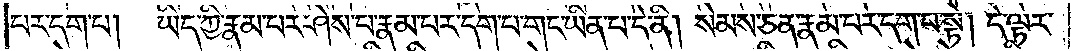པར་དག་པ། ཡིད་ཀྱི་རྣམ་པར་ཤེས་པ་རྣམ་པར་དག་པ་གང་ཡིན་པ་དེ་ནི། སེམས་ཅན་རྣམ་པར་དག་པ་སྟེ། དེ་ལྟར་
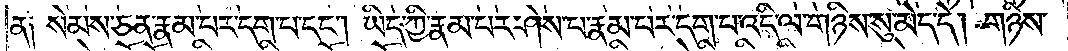ན༑ སེམས་ཅན་རྣམ་པར་དག་པ་དང༌། ཡིད་ཀྱི་རྣམ་པར་ཤེས་པ་རྣམ་པར་དག་པ་འདི་ལ་གཉིས་སུ་མེད་དེ། གཉིས་
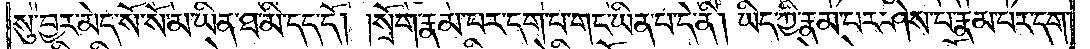སུ་བྱར་མེད་སོ་སོ་མ་ཡིན་ཐ་མི་དད་དོ། །སྲོག་རྣམ་པར་དག་པ་གང་ཡིན་པ་དེ་ནི། ཡིད་ཀྱི་རྣམ་པར་ཤེས་པ་རྣམ་པར་དག་
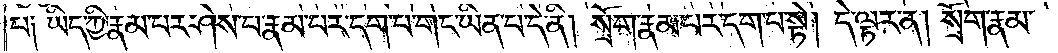པ༑ ཡིད་ཀྱི་རྣམ་པར་ཤེས་པ་རྣམ་པར་དག་པ་གང་ཡིན་པ་དེ་ནི། སྲོག་རྣམ་པར་དག་པ་སྟེ། དེ་ལྟར་ན། སྲོག་རྣམ་
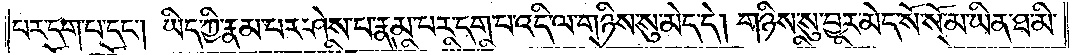པར་དག་པ་དང༌། ཡིད་ཀྱི་རྣམ་པར་ཤེས་པ་རྣམ་པར་དག་པ་འདི་ལ་གཉིས་སུ་མེད་དེ། གཉིས་སུ་བྱར་མེད་སོ་སོ་མ་ཡིན་ཐ་མི་
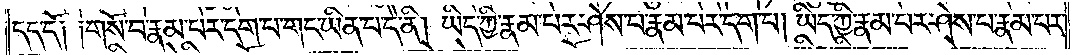དད་དོ། །གསོ་བ་རྣམ་པར་དག་པ་གང་ཡིན་པ་དེ་ནི། ཡིད་ཀྱི་རྣམ་པར་ཤེས་པ་རྣམ་པར་དག་པ། ཡིད་ཀྱི་རྣམ་པར་ཤེས་པ་རྣམ་པར་
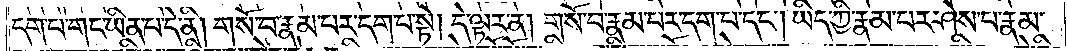དག་པ་གང་ཡིན་པ་དེ་ནི། གསོ་བ་རྣམ་པར་དག་པ་སྟེ། དེ་ལྟར་ན། གསོ་བ་རྣམ་པར་དག་པ་དང༌། ཡིད་ཀྱི་རྣམ་པར་ཤེས་པ་རྣམ་
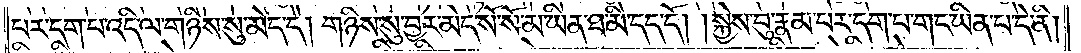པར་དག་པ་འདི་ལ་གཉིས་སུ་མེད་དེ། གཉིས་སུ་བྱར་མེད་སོ་སོ་མ་ཡིན་ཐ་མི་དད་དོ། །སྐྱེས་བུ་རྣམ་པར་དག་པ་གང་ཡིན་པ་དེ་ནི།
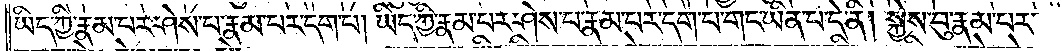ཡིད་ཀྱི་རྣམ་པར་ཤེས་པ་རྣམ་པར་དག་པ། ཡིད་ཀྱི་རྣམ་པར་ཤེས་པ་རྣམ་པར་དག་པ་གང་ཡིན་པ་དེ་ནི། སྐྱེས་བུ་རྣམ་པར་
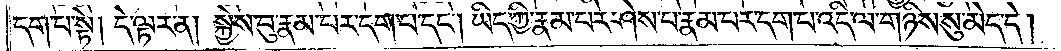དག་པ་སྟེ། དེ་ལྟར་ན། སྐྱེས་བུ་རྣམ་པར་དག་པ་དང༌། ཡིད་ཀྱི་རྣམ་པར་ཤེས་པ་རྣམ་པར་དག་པ་འདི་ལ་གཉིས་སུ་མེད་དེ།
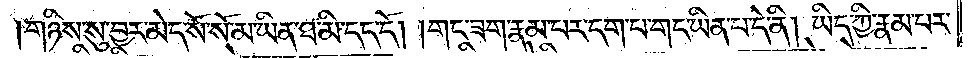གཉིས་སུ་བྱར་མེད་སོ་སོ་མ་ཡིན་ཐ་མི་དད་དོ། །གང་ཟག་རྣམ་པར་དག་པ་གང་ཡིན་པ་དེ་ནི། ཡིད་ཀྱི་རྣམ་པར་
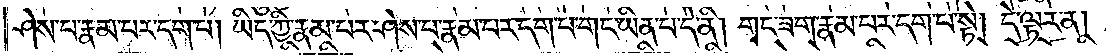ཤེས་པ་རྣམ་པར་དག་པ། ཡིད་ཀྱི་རྣམ་པར་ཤེས་པ་རྣམ་པར་དག་པ་གང་ཡིན་པ་དེ་ནི། གང་ཟག་རྣམ་པར་དག་པ་སྟེ། དེ་ལྟར་ན་
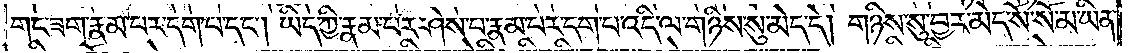གང་ཟག་རྣམ་པར་དག་པ་དང༌། ཡིད་ཀྱི་རྣམ་པར་ཤེས་པ་རྣམ་པར་དག་པ་འདི་ལ་གཉིས་སུ་མེད་དེ། གཉིས་སུ་བྱར་མེད་སོ་སོ་མ་ཡིན་
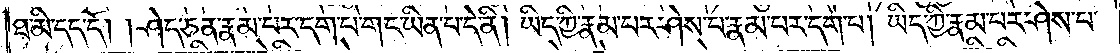ཐ་མི་དད་དོ། །ཤེད་ཅན་རྣམ་པར་དག་པ་གང་ཡིན་པ་དེ་ནི། ཡིད་ཀྱི་རྣམ་པར་ཤེས་པ་རྣམ་པར་དག་པ། ཡིད་ཀྱི་རྣམ་པར་ཤེས་པ་
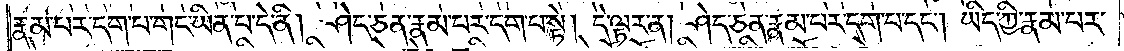རྣམ་པར་དག་པ་གང་ཡིན་པ་དེ་ནི། ཤེད་ཅན་རྣམ་པར་དག་པ་སྟེ། དེ་ལྟར་ན། ཤེད་ཅན་རྣམ་པར་དག་པ་དང༌། ཡིད་ཀྱི་རྣམ་པར་
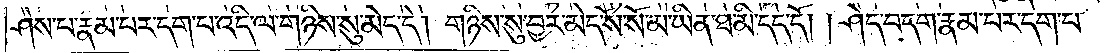ཤེས་པ་རྣམ་པར་དག་པ་འདི་ལ་གཉིས་སུ་མེད་དེ། གཉིས་སུ་བྱར་མེད་སོ་སོ་མ་ཡིན་ཐ་མི་དད་དོ། །ཤེད་བདག་རྣམ་པར་དག་པ་
